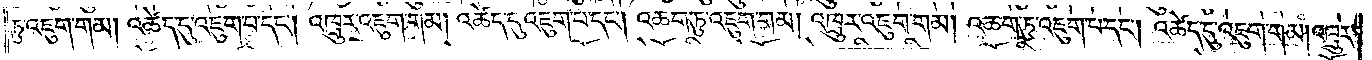ཏུ་འཇུག་གམ། འཚེད་དུ་འཇུག་པ་དང༌། འཁྲུར་འཇུག་གམ། འཚེད་དུ་འཇུག་པ་དང༌། འཆག་ཏུ་འཇུག་གམ། འཁྲུར་འཇུག་གམ། འཆག་ཏུ་འཇུག་པ་དང༌། འཚེད་དུ་འཇུག་གམ། འཁྲུར་
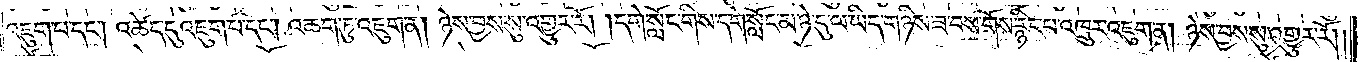འཇུག་པ་དང༌། འཚེད་དུ་འཇུག་པ་དང༌། འཆག་ཏུ་འཇུག་ན། ཉེས་བྱས་སུ་འགྱུར་རོ། །དགེ་སློང་གིས་དགེ་སློང་མ་ཉེ་དུ་ལ་ཡིད་གཉིས་ཟ་བས་གོས་རྙིང་པ་འཁྲུར་འཇུག་ན། ཉེས་བྱས་སུ་འགྱུར་རོ༎
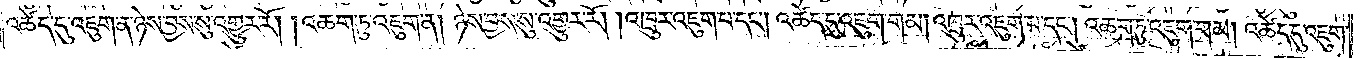འཚེད་དུ་འཇུག་ན་ཉེས་བྱས་སུ་འགྱུར་རོ། །འཆག་ཏུ་འཇུག་ན། ཉེས་བྱས་སུ་འགྱུར་རོ། །འཁྲུར་འཇུག་པ་དང༌། འཚེད་དུ་འཇུག་གམ། འཁྲུར་འཇུག་པ་དང༌། འཆག་ཏུ་འཇུག་གམ། འཚེད་དུ་འཇུག་
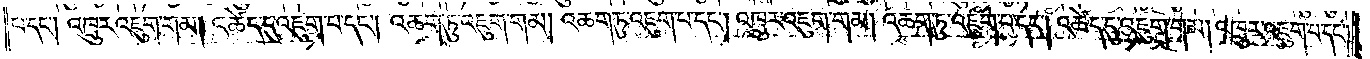པ་དང༌། འཁྲུར་འཇུག་གམ། འཚེད་དུ་འཇུག་པ་དང༌། འཆག་ཏུ་འཇུག་གམ། འཆག་ཏུ་འཇུག་པ་དང༌། འཁྲུར་འཇུག་གམ། འཆག་ཏུ་འཇུག་པ་དང༌། འཚེད་དུ་འཇུག་གམ། འཁྲུར་འཇུག་པ་དང༌།
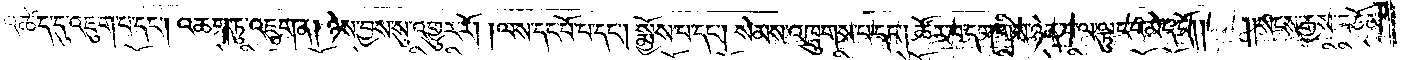འཚེད་དུ་འཇུག་པ་དང༌། འཆག་ཏུ་འཇུག་ན། ཉེས་བྱས་སུ་འགྱུར་རོ། །ལས་དང་པོ་པ་དང༌། སྨྱོས་པ་དང༌། སེམས་འཁྲུགས་པ་དང༌། ཚོར་བ་དག་གིས་ཉེན་པ་ལ་ལྟུང་བ་མེད་དོ༎ ༎སངས་རྒྱས་བཅོམ་
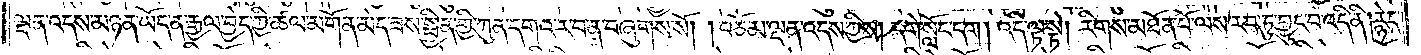ལྡན་འདས་མཉན་ཡོད་ན་རྒྱལ་བྱེད་ཀྱི་ཚལ་མགོན་མེད་ཟས་སྦྱིན་གྱི་ཀུན་དགའ་ར་བ་ན་བཞུགས་སོ། །བཅོམ་ལྡན་འདས་ཀྱིས། དགེ་སློང་དག །འདི་ལྟ་སྟེ། རིགས་མཐོན་པོ་ལས་རབ་ཏུ་བྱུང་བ་འདི་ནི།རྙེད་
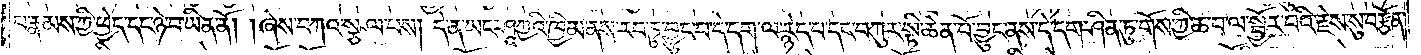པ་རྣམས་ཀྱི་ཕྱེད་དང་ཉེ་བ་ཡིན་ནོ། །ཞེས་བཀའ་སྩལ་པས། དེ་ན་ཡང་ཤཱཀྱའི་ཁྱིམ་ནས་རབ་ཏུ་བྱུང་བ་དེ་དག་ལ་རྙེད་པ་དང་བཀུར་སྟི་ཆེན་པོ་བྱུང་ནས་དེ་དག་ཤིན་ཏུ་གོས་ཀྱི་ཆ་བ་ལ་སྦྱོར་བའི་རྗེས་སུ་བརྩོན་
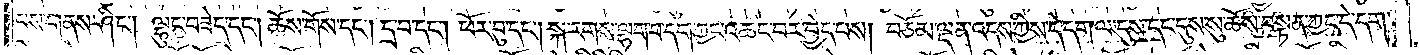པས་གནས་ཤིང༌། ལྷུང་བཟེད་དང༌། ཆོས་གོས་དང༌། དྲ་བ་དང༌། ཕོར་བུ་དང༌། སྐ་རགས་ལྷག་པ་དག་ཀྱང་འཆང་བར་བྱེད་པས། བཅོམ་ལྡན་འདས་ཀྱིས་དེ་དག་ལ་དུས་དང་དུས་སུ་ཆོས་བསྟན་ཀྱང་དེ་དག་
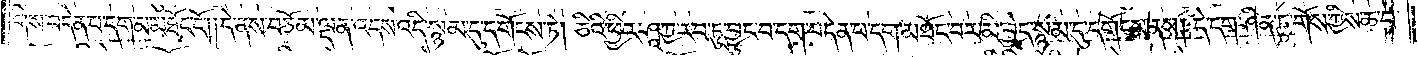གིས་བདེན་པ་དག་མ་མཐོང་ངོ༌༎དེ་ནས་བཅོམ་ལྡན་འདས་འདི་སྙམ་དུ་དགོངས་ཏེ། ཅིའི་ཕྱིར་ཤཱཀྱ་རབ་ཏུ་བྱུང་བ་དག་བདེན་པ་དག་མཐོང་བར་མི་བྱེད་སྙམ་དུ་དགོངས་ནས། དེ་དག་ཤིན་ཏུ་གོས་ཀྱིས་ཆབ་
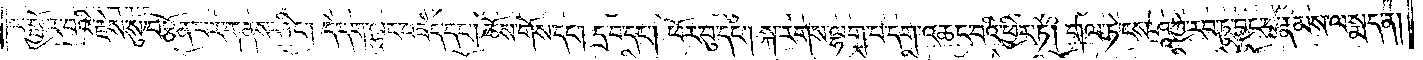ལ་སྦྱོར་བའི་རྗེས་སུ་བརྩོན་པར་གནས་ཤིང༌། དེ་དག་ལྷུང་བཟེད་དང༌། ཆོས་གོས་དང༌། དྲ་བ་དང༌། ཕོར་བུ་དང༌། སྐ་རགས་ལྷག་པ་དག་འཆང་བའི་ཕྱིར་ཏེ། གལ་ཏེ་ངས་ཤཱཀྱ་རབ་ཏུ་བྱུང་བ་རྣམས་ལ་སྨད་ན།
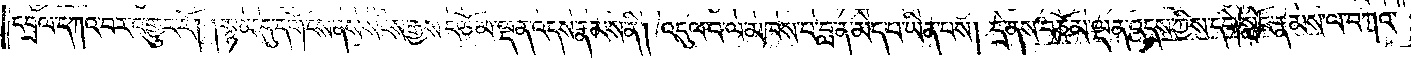དབྲལ་དཀའ་བར་འགྱུར་རོ། །སྙམ་དུ་དགོངས་ནས་སངས་རྒྱས་བཅོམ་ལྡན་འདས་རྣམས་ནི། འདུལ་བ་ལ་མཁས་པ་བླ་ན་མེད་པ་ཡིན་པས། དྲེ་ནས་བཅོམ་ལྡན་འདས་ཀྱིས་དགེ་སློང་རྣམས་ལ་བཀའ་
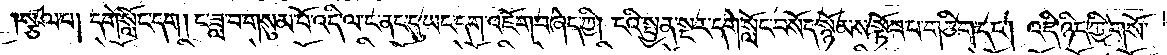སྩལ་པ། །དགེ་སློང་དག། ང་ཟླ་བ་གསུམ་པོ་འདི་ལ་ང་ནང་དུ་ཡང་དག་འཇོག་བཞེད་ཀྱི། ངའི་སྤྱན་སྔར་དགེ་སློང་བསོད་སྙོམས་སྟོབ་པ་གཅིག་དང༌། འདི་ཉིད་ཀྱི་གསོ་
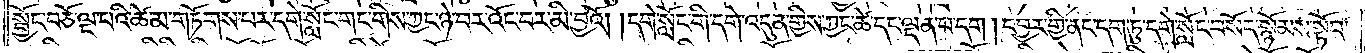སྦྱོང་བཅོ་ལྔ་པའི་ཚེ་མ་གཏོགས་པར་དགེ་སློང་གང་གིས་ཀྱང་ཉེ་བར་འོང་བར་མི་བྱའོ། །དགེ་སློང་གི་དགེ་འདུན་གྱིས་ཀྱང་ཚེ་དང་ལྡན་པ་དག། དབྱར་གྱི་ནང་དག་ཏུ་དགེ་སློང་བསོད་སྙོམས་སྟོབ་
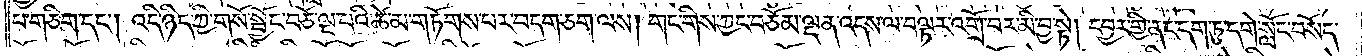པ་གཅིག་དང༌། འདི་ཉིད་ཀྱི་གསོ་སྦྱོང་བཅོ་ལྔ་པའི་ཚེ་མ་གཏོགས་པར་བདག་ཅག་ལས། གང་གིས་ཀྱང་བཅོམ་ལྡན་འདས་ལ་བལྟར་འགྲོ་བར་མི་བྱ་སྟེ། དབྱར་གྱི་ནང་དག་ཏུ་དགེ་སློང་བསོད་
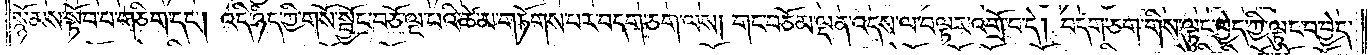སྙོམས་སྟོབས་པ་གཅིག་དང༌། འདི་ཉིད་ཀྱི་གསོ་སྦྱོང་བཅོ་ལྔ་པའི་ཚེ་མ་གཏོགས་པར་བདག་ཅག་ལས། གང་བཅོམ་ལྡན་འདས་ལ་བལྟར་འགྲོ་བ་དེ། བདག་ཅག་གིས་ལྟུང་བྱེད་ཀྱི་ལྟུང་བ་བྱེད་
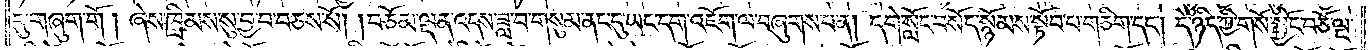དུ་གཞུག་གོ ། ཞེས་ཁྲིམས་སུ་བྱ་བ་བཅས་སོ། །བཅོམ་ལྡན་འདས་ཟླ་བ་གསུམ་ནང་དུ་ཡང་དག་འཇོག་ལ་བཞུགས་པ་ན། དགེ་སློང་བསོད་སྙོམས་སྟོབ་པ་གཅིག་དང༌། དེ་ཉིད་ཀྱི་གསོ་སྦྱོང་བཅོ་ལྔ་
